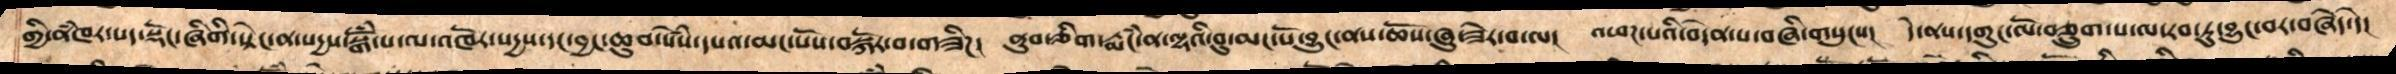གྱི་ནཾཁར་པད་སྡོང་ཞིགི་སྟེང་ན་སདྱས་སྒོཾ་པ་ལ་འཁོར་སདྱས་དང་བྱང་ཆུབ་སེཾས་དཔའ་མང་པོས་བསྐོར་བ་གཟིཌ།  ནུབ་ཅིག་རྨཾང་ན་ལྷའི་བུ་མང་པོ་བྱུང་ནས་ཆོས་ཞུ་ཟེར་བ་ལ།  འཕཌ་པའི་བདེན་པ་བཞི་གསུངས།  དེ་ནས་དགུང་ལོ་བཅྲུག་པ་ལ་རབ་ཏུ་བྱུང་བར་བཞེད་དེ།
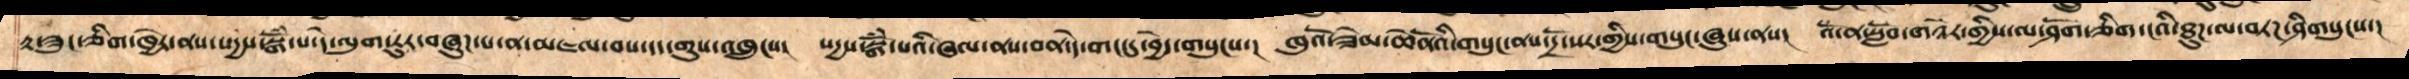རྟ་ཟུང་ཅིག་ཁྱེར་ནས་སདྱས་སྒོཾ་པ་དེ་ལུག་རུར་བཞུཌ་པ་ན་མཇལ་བས་དད་གུས་འཁྲུངས།  སདྱས་སྒོཾ་པའོ་ཞལ་ནས་བན་དེ་གང་དུ་བྱེད་གསུངས་།  ཁུའོ་ཟོམ་ཆེནོའི་གསུང་ནས་དྲོ་སར་གྱིས་གསུང་ཞུས་ནས།   འོ་ན་སློབ་གཉེར་གྱིས་ལ་ཤོད་ཅིག་ངའི་ཐུཌ་ལ་བཏཌ་ཤིགསུངས་།
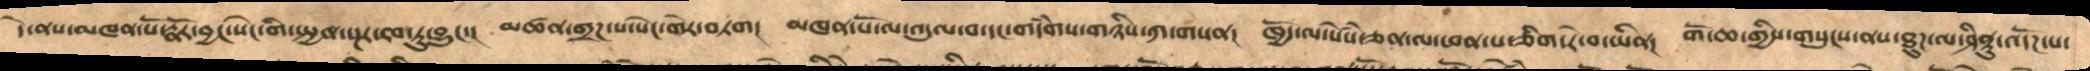དེ་ནས་མཁན་པོ་རྣོར་བྱང་སེང་གི་སྤྱན་སྔར་རབ་ཏུ་བྱུང་།   མཚན་གྲཌ་པ་སེང་གེར་བཏག།   མཁན་པོ་ལ་འདུལ་བ་དང་གདཾགས་གཉིས་ཀ་གསན།  ཁྱོད་ལ་སེཾས་ཅན་ལ་ཕན་པ་ཅིག་རེ་བ་ཡིན། གོ་ཆ་གྱིས་གསུངས་ནས་ཐུཌ་ལ་ཤིནྟུ་འདོཌ་པ་
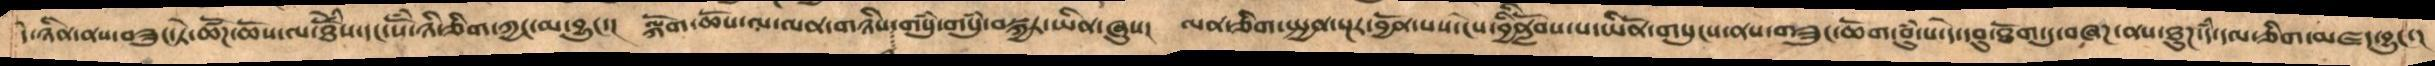དེ་ཉིན་ནས་བཟུང་ཏེ་ཚོཌ་ཆོས་ལ་ཐོཚོཾས་དང་སོཾ་ཉི་ཅིག་ཀྱང་མ་བྱུང་།   ལྐོག་ཆོས་ལ་ལན་གཉིས་གསུཾ་གསུཾ་བསྐྱར་ཡིན་ཞུས།  ལན་ཅིག་སྤྱན་སྔར་བྱོན་པས་ངེས་བྱིནླིོབས་པ་ཡིནོ་གསུངས་ནས་གཟུང་ཆོག་བུཾ་པ་དེ་དབུ་ཐོག་དུ་བཞཌ་ནས་ཐུཌ་དཾ་དལ་ཅིག་མཛད་བྱུང་།
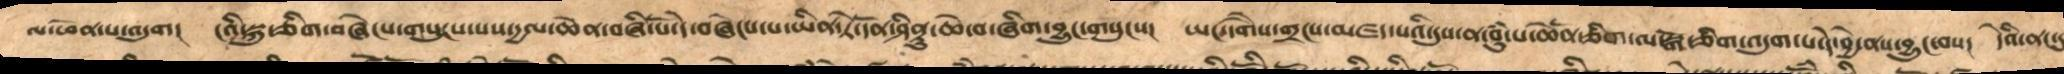ལ་ཕེན་པ་འདུག།   ངའི་སྐུ་ཅིག་བཞེངས་གསུངས་པས་དྱལ་ཆེན་བཞི་པོ་དེ་བཞེངས་པ་ཡིན་ཏེ་དོན་ཤིནྟུ་ཆེ་བ་ཞིག་བྱུང་གསུངས།   ཡང་དགཻས་གྲངས་མཛད་པའི་དུས་ན་བུཾ་པ་ཆེནོ་ཅིག་ལ་སྒོ་ཅིག་འདུག་པ་དེ་བྱེ་ནས་བྱུང་བས།  དེའི་ནང་དུ
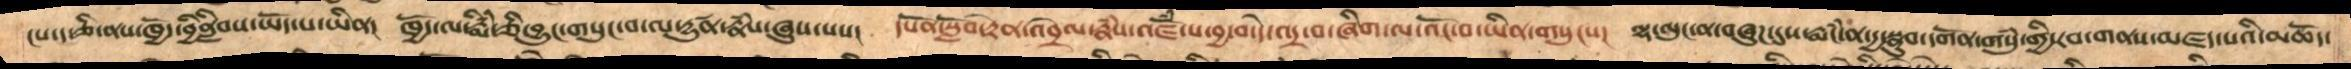ངས་ད་ཅི་ནས་ཁྱོད་ནླིབས་ཡོད་པ་ཡིན།   ཁྱོད་ལ་རྨིཾ་ཅི་བྱུང་གསུང་བ་ལ་དྱུཚན་རྣཾས་ཞུས་པས།    དཔོན་སློབ་རྟེན་འབྲེལ་རྣཾས་འཛོཾ་ས་བྱ་བ་དེ་འདྲ་བ་ཞིག་ལ་འོང་བ་ཡིན་གསུངས།  ལྷ་ལུང་ན་བཞུཌ་དུས་རྨངཾ་ན་དྱ་སྣུབ་དགོན་གསུཾ་གྱི་རབ་གནས་མཛད་པའི་མཆོད་
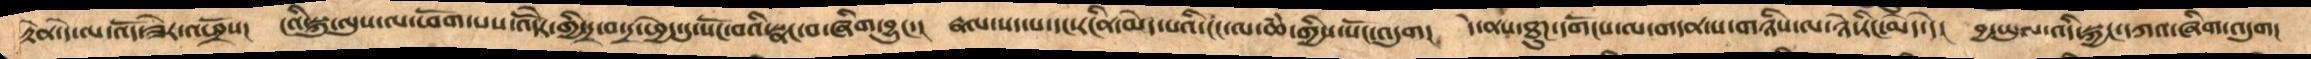རྟེན་དེ་ལ་འོད་ཟེར་འཕྲོས།   ངའི་སྐུ་ལུས་ལ་ཕོག་པས་འོདེར་གྱི་དྲ་བ་དྲ་ཕྱེད་དུ་སོང་བའི་སྣང་བ་ཞིག་བྱུང་།   རྣལ་སད་པ་དང་རངིན་མེད་པའི་ངང་ལ་ཆཾ་གྱིས་སོང་འདུག།  དེ་ནས་ཐུཌ་དགོངས་ལ་གདན་ས་གཉིས་ལ་ཉེ་རིང་མེད་དེ།  བྱ་ཡུལ་འདི་སྐྱང་དཀའ་ཞིག་འདུག་
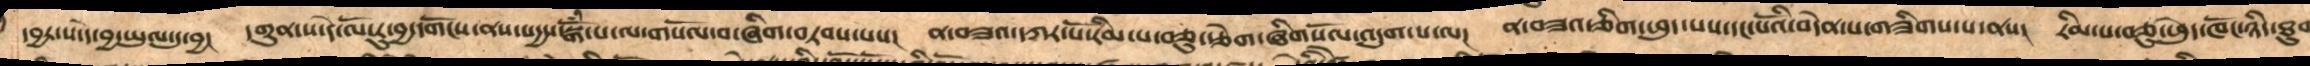དབྱར་ས་དེ་བྱ་ཡུལ་དུ་བྱ།    དགུན་ས་དེ་ལོ་རུ་བྱ་དགོངས་ནས་སདྱས་སྒོཾ་པ་ལ་གསོལ་བ་ཞིག་བཏབས་པས།    ན་བཟའ་དཀར་པོ་རིམ་པ་བཅུ་རྩེག་ཞིགསོལ་འདུག་པ་ལ།  ན་བཟའ་ཅིག་ཕུད་པས་དང་པོའི་བདེན་པ་གཟིགས་པ་ནས།  རིམ་པ་བཅུ་ཕེུད་ཁོང་ཉིད་ཐུག
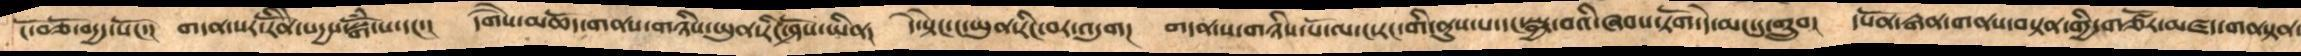ངོ་བཅོ་བདྱ་སོང་།  གདན་སར་རིནོི་སདྱས་སྒོཾ་པ་དང་།  དགཻས་མཆོད་གནས་གཉིས་ཡུན་རིང་ཤོས་ཡིན།  དེ་སྟེང་ང་ཡུན་རིང་བར་འདུག།  གདན་ས་གཉིས་པོ་ལ་ང་རང་གི་ནུས་པ་དང་སྦྱང་བའི་ཞབས་ཏོག་དེ་མང་དུ་གྲུབ།   དཔོན་རྒན་གནས་བསྟན་གྱི་གཙོར་མཛད་གནསྟན་
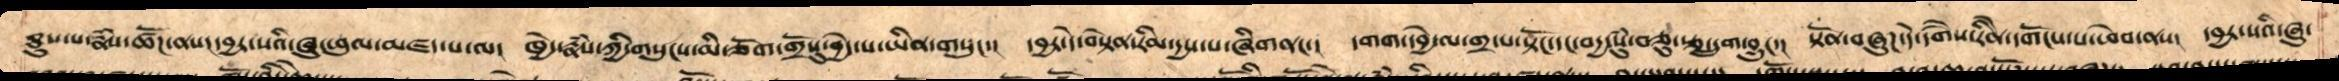ཐུབ་པ་རྣཾས་ཚོཌ་ནས།་དབྱར་སའི་ཞུ་ཕུལ་མཛད་པ་ལ།  ཁྱེད་རྣཾས་ཀྱི་གསུངས་མི་ཅོག་གྲོསུ་བྱེད་པ་ཡིན་གསུང་།  དབྱར་དེ་བསྟེན་རིམ་དྱས་པ་ཞིགནང་།  དགག་དབྱེ་ལ་གྲ་པ་སྟོང་དང་བདྱ་སུཾ་བཅུ་རྩ་དྲུག་བྱུང་།  སྟོན་བཞུཌ་དེ་དགཻས་རིནེ་དགོངས་པ་ཕེབ་ནས།  དབྱར་སའི་ཞུ་
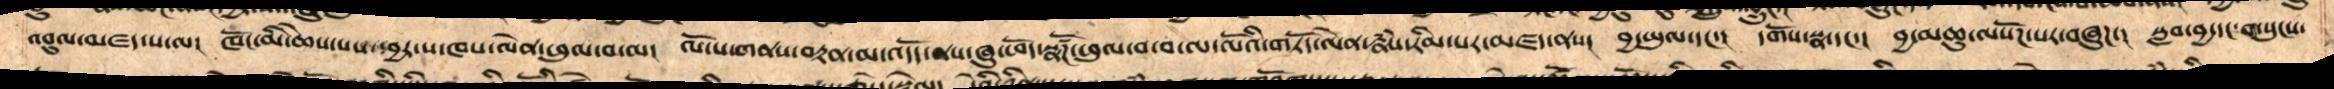འབུལ་མཛད་པ་ལ།  ཁོང་མི་ཆེས་པས་དབྱར་ས་ཁས་ལེན་ཕུལ་བ་ལ།  ལོ་ས་གནས་བསྟན་མ་འདོད་ནས་ཞུ་ཕོད་སྣཚོཌ་ཕུལ་བ་བ་ལ་ལོའི་གཏོད་ལེན་རྣཾས་རིམ་པར་མཛད་ནས།  བྱ་ཡུལ་དང་།  དགོས་སྣ་དང་།  བྱ་མཆུ་ལསོཌ་པར་བཞུཌ་།  སླབ་བྱ་དང་གསུངས་
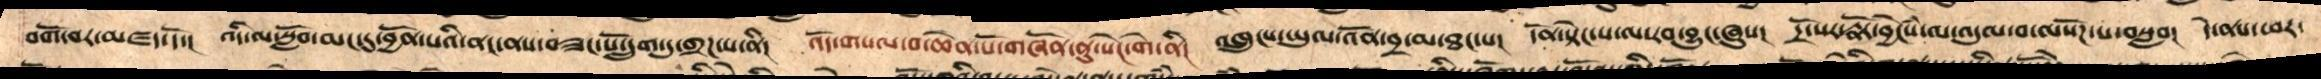བགོ་བར་མཛད་དོ་།  འདི་ལ་སློབ་མང་དུ་བྱོན་པའི་ནང་ནས་བཟང་པོ་དྲུག་ཏུ་གྲཌ་པ་ནི།   འོད་གསལ་བ་ཆེན་པོ་གཞོན་ནུ་སེང་གེ་ནི།  འཁྲུངས་ཡུལ་འོན་བྲ་མ་ཐང་པ།  དོན་སྟེང་པ་ལ་རབ་བྱུང་ཞུས།   དྲོ་སར་རྣོར་བྱངེསཾ་་ལ་འདུལ་བ་ལསོཌ་པ་བསླབ།   དེ་ནས་ཕར་
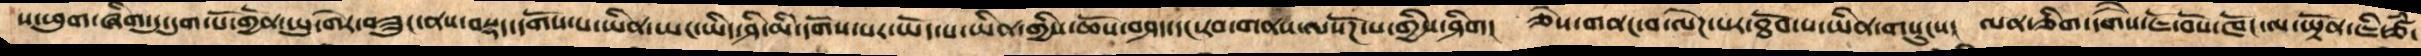ས་ཕུག་ཞིག་དུ་དུག་པོ་གྱོན་ཡུ་གེར་བཟུང་ནས་བསྡད་དགོས་པ་ཡིན་ཡང་ཡིད་ཤི་མི་དགོས་པར་ཡོད་པ་ཡིན་གྱིས་ཆོས་བཤད་དང་རབ་གནས་ལསོཌ་པ་གྱིས་ཤིག།  ཅེས་གནང་བ་ལེཌ་པར་ཐོབ་པ་ཡིན་གསུངས།  ལན་ཅིག་དགཻས་ཇོ་བོས་ཁོང་ལ་ཡྟོན་ཇི་ཙཾ་
